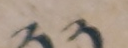༢༢
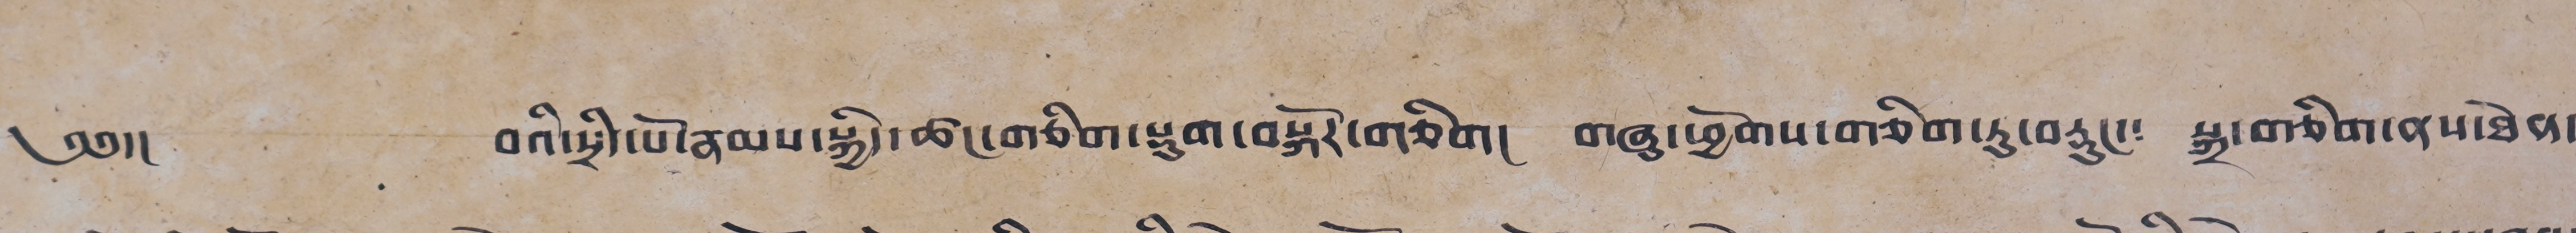༄༅།། བའི་སྲིད་པོ་རྣམས་སྐྱིད་ཚང་གཅིག་སྡུག་བསྐོར་གཅིག། གཞུ་ཕྱོགས་གཅིག་ཏུ་བརྡུང་༴ སྐྲ་གཅིག་ནས་ཐེན་
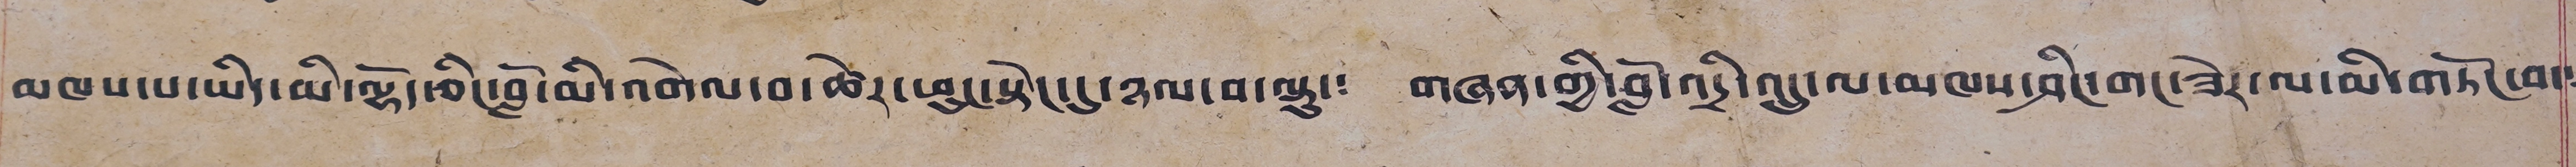མཁས་པ་ཡིད་མི་ལྷོད་ཅིང་བློ་མི་འགེལ་བ་ཚེར་ཕུང་སྟེང་དུ་ཉལ་བ་ལྟུ་༴ གཞན་གྱི་བློ་འདྲི་འདྲུ་ལ་མཁས་ཤིང་གང་ཟེར་ལ་མི་གཏོང་བ་༴
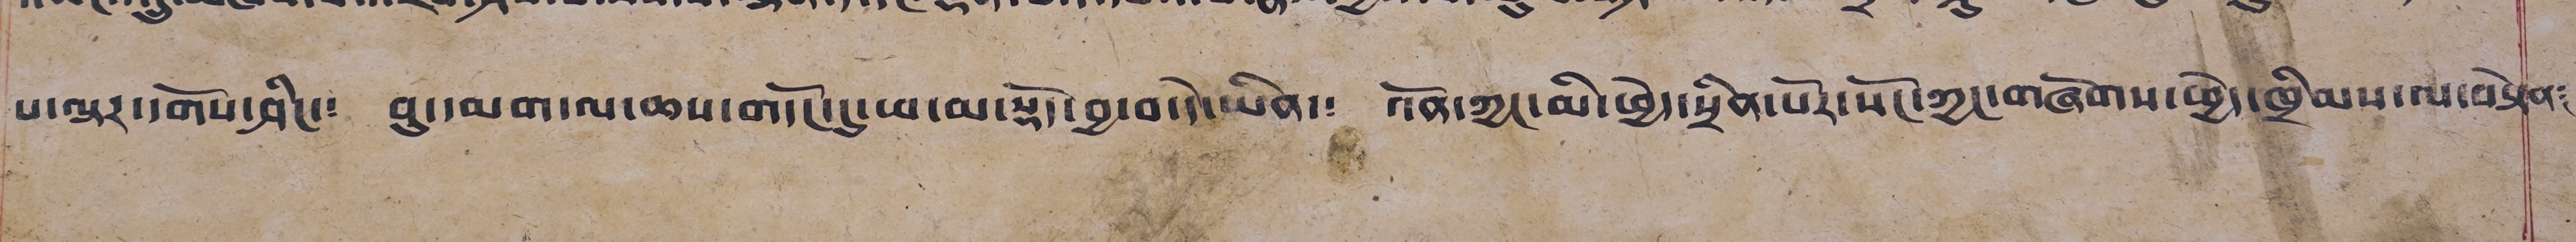པ་ལྟར་དགོས་ཤིང་༴ བུ་དམག་ལ་ཆས་གདོང་དུ་ཕ་མ་སྡོད་བྱ་བ་དེ་ཡིན་༴ འོན་ཀྱང་མི་ཕྱེ་སྲིན་སོར་སོང་ཀྱང་གཞོགས་ཕྱེད་ཁྲིམས་ལ་བསྟེན༴
